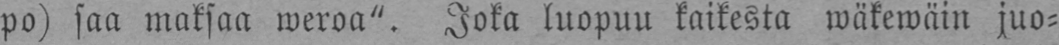po) saa maksaa weroa". Joka luopuu kaikesta wäkewäin suo-
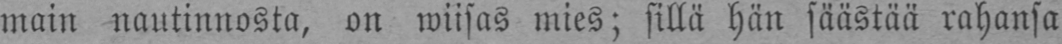main nautinnosta, on wiisas mies; sillä hän säästää rahansa
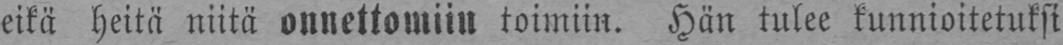eikä heitä niitä onnettomiin toimiin. Hän tulee kunnioitetuksi
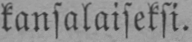kansalaiseksi.
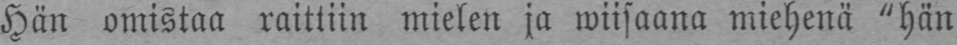Hän omistaa raittiin mielen ja wiisaana miehenä "hän
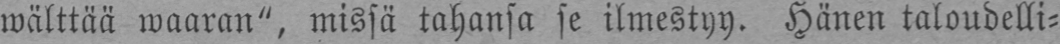wälttää wäärän", missä tahansa se ilmestyy. Hänen taloudelli-
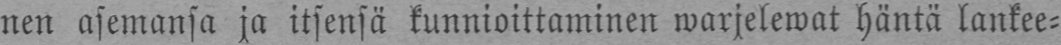nen asemansa ja itsensä kunnioittaminen warjelewat häntä lankee-
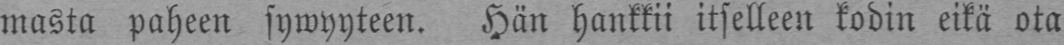masta paheen sywyyteen. Hän hankkii itselleen kodin eikä ota
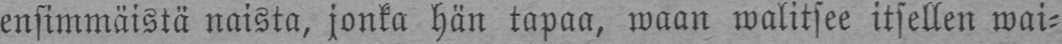ensimmäistä naista, jonka hän tapaa, waan walitsee itsellen wai-
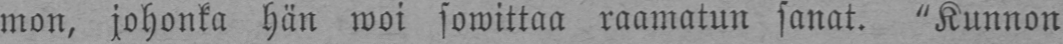mon, johonka hän woi sowittaa raamatun sanat. "Kunnon
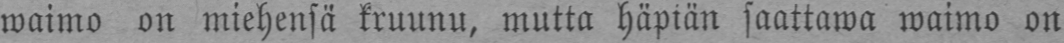waimo on miehensä kruunu, mutta häpiän saattawa waimo on
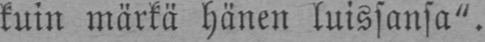kuin märkä hänen luissansa".
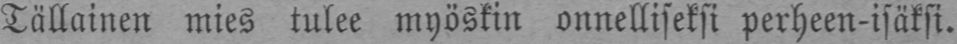Tällainen mies tulee myöskin onnelliseksi perheen-isäksi.
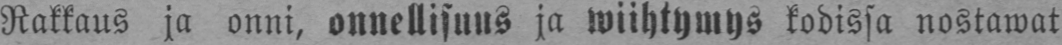Rakkaus ja onni, onnellisuus ja wiihtymys kodissa nostawat
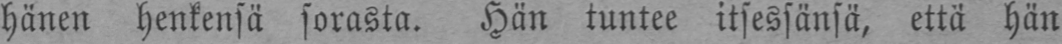hänen henkensä sorasta. Hän tuntee itsessänsä, että hän
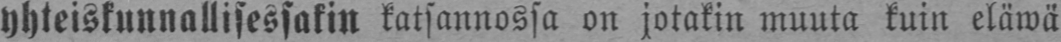yhteiskunnallisessakin katsannossa on jotakin muuta kuin eläwä
